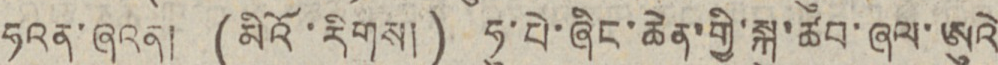ཧའན་ཞའན། (མིའོ་རིགས།) ཧུ་པེ་ཞིང་ཆེན་གྱི་སྐུ་ཚབ་ཞལ་ཨུའེ
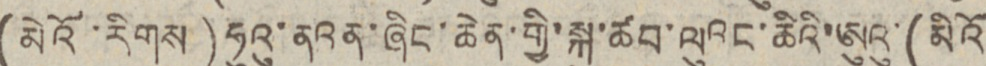(མེའོ་རིགས)ཧུའུ་ནའན་ཞིང་ཆེན་གྱི་སྐུ་ཚབ་ལུའང་ཆིའི་ཨུའུ་(མིའོ
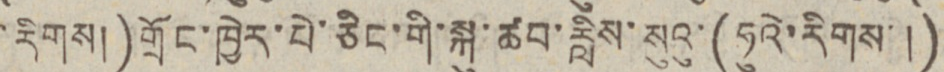་རིགས།)གྲོང་ཁྱེར་པེ་ཅིང་གི་སྐུ་ཚབ་རླིས་སུའུ་(ཧུའེ་རིགས་།)
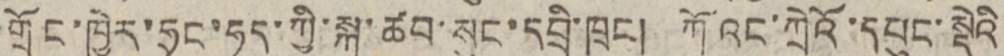གྲོང་ཁེར་ཧྲང་ཧད་ཀྱི་སྐུ་ཚབ་སུང་དབྲི་ཁྲང། ཀོའང་ཀྲེའོ་དཔུང་སྡེའི
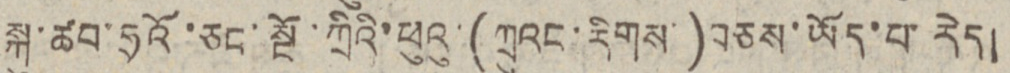སྐུ་ཚབ་ཧྲའོ་ཅང་སྔོ་ཀྲིའི་ཕུའུ་(ཀྲུའང་རིགས་)བཅས་ཡོད་པ་རེད།
